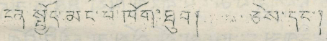ངན སྤྱོད་མང་པོ་ཁོག་ཐུབ། ཅེས་དང་།
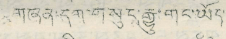གཞན་དག་གསུང་རྒྱུ་གང་ཡོད་
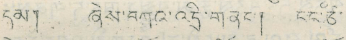དམ། ཞེས་བཀའ་འདྲི་གནང་། ངང་ཙི་
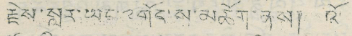རྗེས་སླར་ཡང་༸གོང་མ་མཆོག་ནས། འོ་
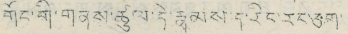གོང་གི་གནས་ཚུལ་ཏེ་རྣམས་ད་རིང་རང་ཅག་
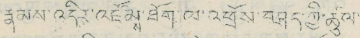རྣམས་འདིར་འཛོམས་ཐོག་ལ་འཕྲོས་བཤད་ཀྱི་ཚུལ་
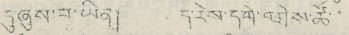དུ་ཞུས་པ་ཡིན། ད་རེས་དགེ་བཤེས་ཚོ་་
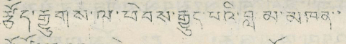རྩོད་རྒྱུགས་ལ་ཕེབས་རྒྱུད་པའི་བླ མ་མཁན་་
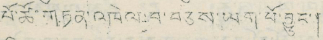པོ་ཚོ་གཏན་འཁེལ་བ་བཅས་ཡག་པོ་བྱུང་།
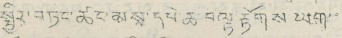སྤྱིར་བཏང་ཚང་མས་དཔེ་ཆ་བལྟ་རྟོགས ཡག་་
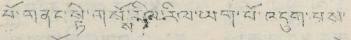པོ་གནང་སྟེ་གསོས་རིལ་རིལ་ཡག་པོ་འདུག་པས་
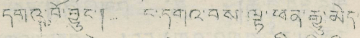དགའ་བོ་བྱུང་། ང་དགའ་བས་ལྟ་ཕན་རྒྱུ་མེད་
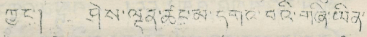ཀྱང་། ཤེས་ལྡན་ཚང་མ་དགའ་བའི་གཞི་ཡིན་
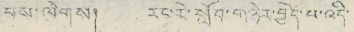པས་ལེགས། རང་རེ་སློབ་གཉེར་བྱེད་པ་འདི་
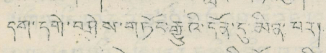དག་དགེ་བཤེས་གཏོང་རྒྱུའི་དོན་དུ་མིན་པར།
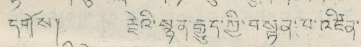དགོས། རྗེའི་སྟན་རྒྱུད་ཀྱི་བསྟན་པ་འཛིན་
